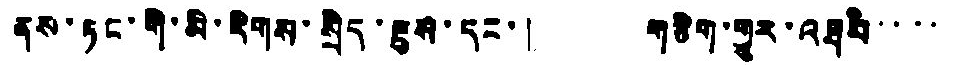ནས་ཏང་གི་མི་རིགས་སྲིད་ཇུས་དང་། གཅིག་གྱུར་འཐབ་་་་
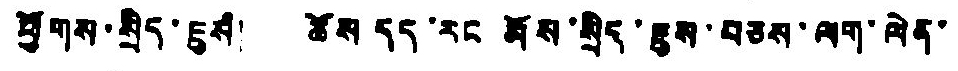ཕྱོགས་སྲིད་ཇུས། ཚོས དད་རང མོས་སྲིད་ཇུས་བཅས་ལག་ལེན་
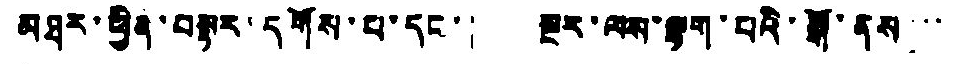མཐར་ཕྱིན་བལྟར་དགོས་པ་དང་། སྔར་ལས་ལྷག་པའི་སྒོ་ནས་་་་
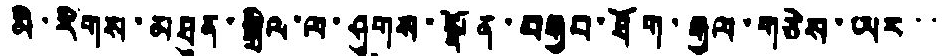མི་རིགས་མཐུན་སྒྲིལ་ལ་ཤུགས་སྣོན་བརྒྱབ་ཐོག་རྒྱལ་གཅེས་ཡར་་
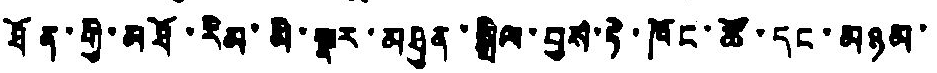ཐོན་གྱི་མཐོ་རིམ་མི་སྣར་མཐུན་སྒྲིལ་བྱས་ཏེ་ཁོང་ཚོ་དང་མཉམ་
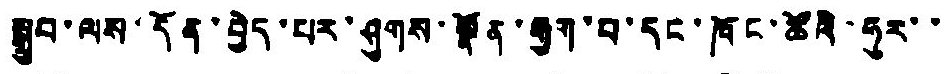སྒྲུབ་ལས་དོན་བྱེད་པར་ཤུགས་སྟོན་རྒྱག་པ་དང་ཁོང་ཚོའི་ཧུར་་
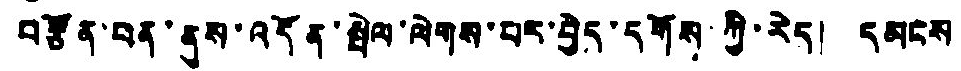བརྩོན་བན་ནུས་འདོན་སྤེལ་ལེགས་པར་བྱེད་དགོས་ཀྱི་རེད། དམངས
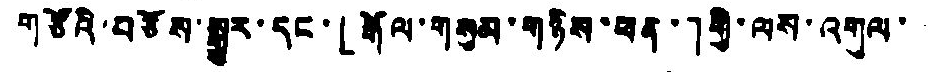གཙོའི་བཅོས་སྒྱུར་དང་「རྒོལ་གསུམ་གཉིས་ཕན་」གྱི་ལས་འགུལ་
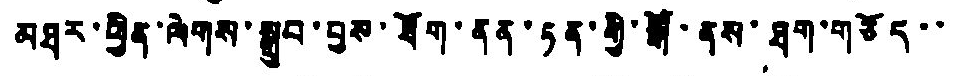མཐར་ཕྱིན་ལེགས་སྒྲུབ་བྱས་ཐོག་ནན་ཏན་གྱི་སྒོ་ནས་ཐག་གཅོད་་
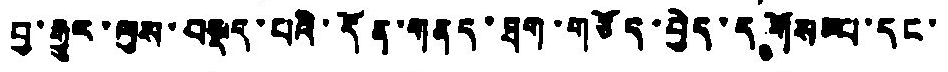བྱ་རྒྱུར་ལུས་བསྡད་པའི་དོན་གནད་ཐག་གཅོད་བྱེད་དགོས་པ་དང་།
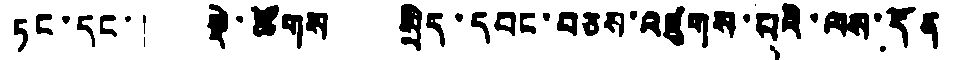ཏང་དང་། སྡེ་ཚོགས སྲིད་དབང་བཅས་འཛུགས་པའི་ལས་དོན
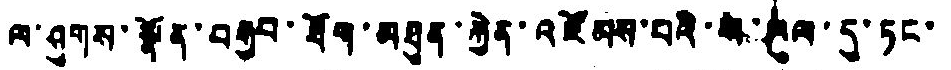ལ་ཤུགས་སྣོན་བརྒྱབ་ཐོག་མཐུན་རྐྱེན་འཛོམས་པའི་ས་ཁུལ་དུ་ཏང་
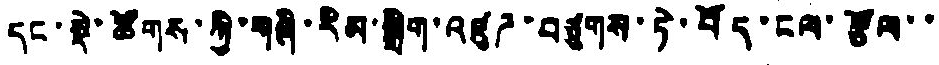དང་སྡེ་ཚོགས་ཀྱི་གཞི་རིམ་སྒྲིག་འཛུཌ་བཙུགས་ཏེ་བོད་ངལ་རྩོལ་་་
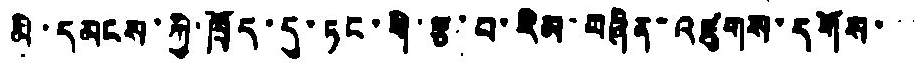མི་དམངས་ཀྱི་ཁྲོད་དུ་ཏང་གི་རྩ་བ་རིམ་བཞིན་འཛུགས་དགོས་་
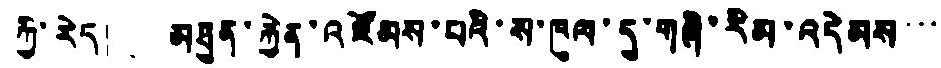ཀྱི་རེད། མཐུན་རྐྱེན་འཛོམས་པའི་ས་ཁུལ་དུ་གཞི་རིམ་འདེམས་་་
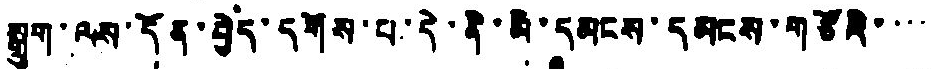སྒྲུག་ལས་དོན་བྱེད་དགོས་པ་དེ་ནི་མི་དམངས་དམངས་གཙོའི་་་་
